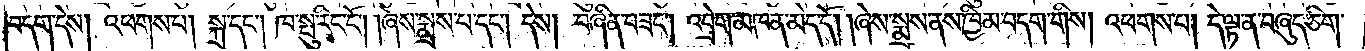བདག་དེས། འཕགས་པ། སྐྲ་དང༌། ཁ་སྤུ་རིང་ངོ༌། །ཞེས་སྨྲས་པ་དང༌། དེས། བཞིན་བཟང༌། འབྲེག་མཁན་མེད་དོ། །ཞེས་སྨྲས་ནས་ཁྱིམ་བདག་གིས། འཕགས་པ། དེ་ལྟ་ན་བཞུད་ཅིག་
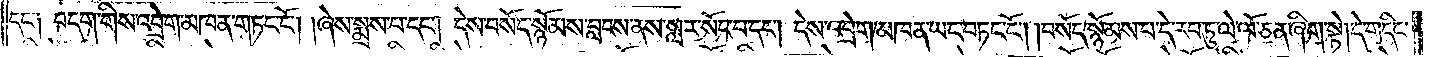དང༌། བདག་གིས་འབྲེག་མཁན་གཏང་ངོ༌། །ཞེས་སྨྲས་པ་དང༌། དེས་བསོད་སྙོམས་བླངས་ནས་སླར་སོང་བ་དང༌། དེས་འབྲེག་མཁན་ཡང་བཏང་ངོ༌། །བསོད་སྙོམས་པ་དེ་རབ་ཏུ་ལེ་ལོ་ཅན་ཞིག་སྟེ། དེ་གདིང་
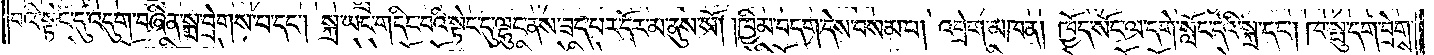བའི་སྟེང་དུ་འདུག་བཞིན་སྐྲ་བྲེགས་པ་དང༌། སྐྲ་ཡང་གདིང་བའི་སྟེང་དུ་ལྷུང་ནས་ཟད་པར་དོར་མ་ནུས་སོ། །ཁྱིམ་བདག་དེས་བསམ་པ། འབྲེག་མཁན། ཁྱོད་སོང་ལ་དགེ་སློང་དེའི་སྐྲ་དང༌། ཁ་སྤུ་དག་བྲེགས་
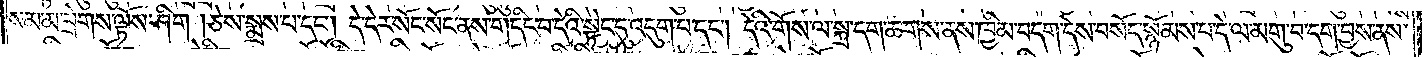སམ་མ་བྲེགས་ལྟོས་ཤིག །ཅེས་སྨྲས་པ་དང༌། དེ་དེར་སོང་སོང་ནས་གདིང་བ་དེའི་སྟེང་དུ་འདུག་པ་དང༌། དེའི་གོས་ལ་སྐྲ་དག་ཆགས་ནས་ཁྱིམ་བདག་དེས་བསོད་སྙོམས་པ་དེ་ལ་མགུ་བ་དག་བྱས་ནས་
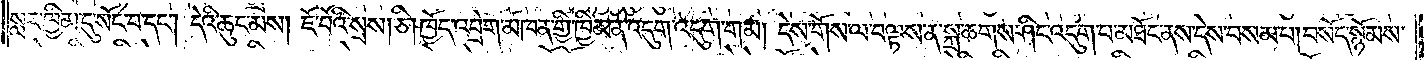སླར་ཁྱིམ་དུ་སོང་བ་དང༌། དེའི་ཆུང་མས། ཇོ་བོའི་སྲས། ཅི། ཁྱོད་འབྲག་མཁན་གྱི་ཁྱིམ་ན་འདུག་འདུག་གམ། དེས་གོས་ལ་བལྟས་ན་སྐྲ་ཆགས་ཤིང་འདུག་པ་མཐོང་ནས་དེས་བསམ་པ། བསོད་སྙོམས་
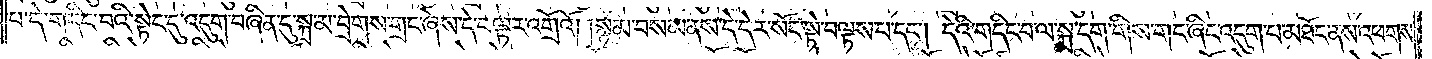པ་དེ་གདིང་བའི་སྟེང་དུ་འདུག་བཞིན་དུ་སྐྲ་མ་བྲེགས་གྲང་ཞེས་དེ་བལྟར་འགྲོའོ། །སྙམ་བསམ་ནས་དེ་དེར་སོང་སྟེ་བལྟས་པ་དང༌། དེའི་གདིང་བ་ལ་སྐྲ་དག་གིས་གང་ཞིང་འདུག་པ་མཐོང་ནས་འཕགས་
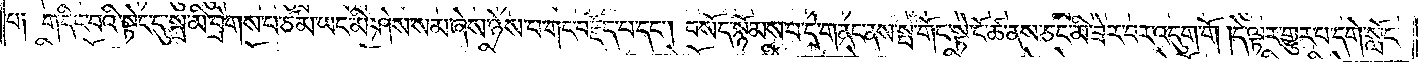པ༑ གདིང་བའི་སྟེང་དུ་སྐྲ་མི་བྲེགས་པ་ཙམ་ཡང་མི་ཤེས་སམ་ཞེས་ཉེས་པ་གང་བརྗོད་པ་དང༌། བསོད་སྙོམས་པ་དེ་གནང་ནས་སྤ་གོང་སྟེ་ངོ་ཚ་ནས་ཅང་མི་ཟེར་བར་འདུག་གོ །དེ་ལྟར་གྱུར་པ་དགེ་སློང་
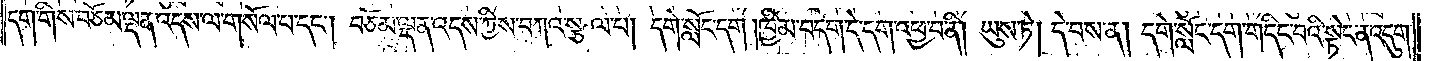དག་གིས་བཅོམ་ལྡན་འདས་ལ་གསོལ་པ་དང༌། བཅོམ་ལྡན་འདས་ཀྱིས་བཀའ་སྩལ་པ། དགེ་སློང་དག །ཁྱིམ་བདག་དེ་དག་འཕྱ་བ་ནི། ཡུས་ཏེ། དེ་བས་ན། དགེ་སློང་དག་གདིང་བའི་སྟེང་ན་འདུག་
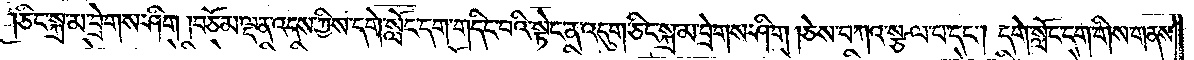ཅིང་སྐྲ་མ་བྲེགས་ཤིག །བཅོམ་ལྡན་འདས་ཀྱིས་དགེ་སློང་དག་གདིང་བའི་སྟེང་ན་འདུག་ཅིང་སྐྲ་མ་བྲེགས་ཤིག །ཅེས་བཀའ་སྩལ་པ་དང༌། དགེ་སློང་དག་གིས་གནས་
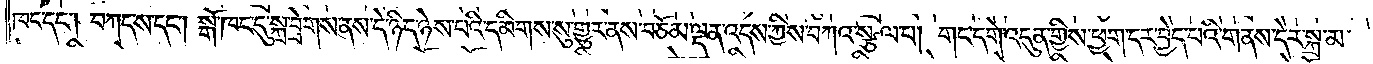ཁང་དང༌། བཀད་ས་དང༌། སྒོ་ཁང་དུ་སྐྲ་བྲེགས་ནས་དེ་ཉིད་ཉེས་པའི་དམིགས་སུ་གྱུར་ནས་བཅོམ་ལྡན་འདས་ཀྱིས་བཀའ་སྩལ་པ། གང་དགེ་འདུན་གྱིས་ཕྱག་དར་བྱེད་པའི་གནས་དེར་སྐྲ་མ་
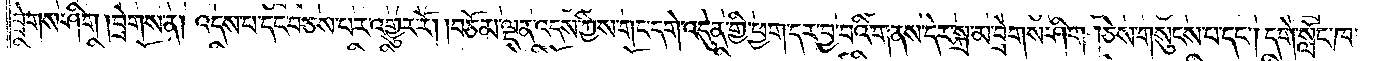བྲེགས་ཤིག །བྲེགས་ན། འདས་པ་དང་བཅས་པར་འགྱུར་རོ། །བཅོམ་ལྡན་འདས་ཀྱིས་གང་དགེ་འདུན་གྱི་ཕྱག་དར་བྱ་བའི་གནས་དེར་སྐྲ་མ་བྲེགས་ཤིག །ཅེས་གསུངས་པ་དང༌། དགེ་སློང་ཁ་
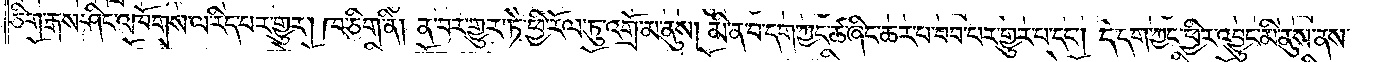ཅིག་རྒས་ཤིང་འཁོགས་ལ་རིད་པར་གྱུར། ཁ་ཅིག་ནི། ན་བར་གྱུར་ཏེ་ཕྱི་རོལ་ཏུ་འགྲོ་མ་ནུས། མི་ན་བ་དག་ཀྱང་ཚ་ཞིང་ཆར་བ་བབ་པར་གྱུར་བ་དང༌། དེ་དག་ཀྱང་ཕྱིར་འབྱུང་མི་ནུས་ནས་
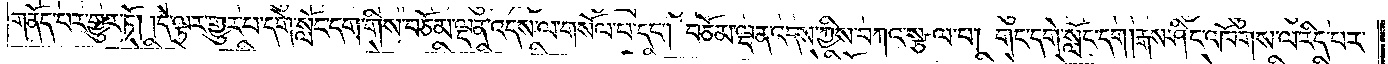གནོད་པར་གྱུར་ཏོ། །དེ་ལྟར་གྱུར་པ་དགེ་སློང་དག་གིས་བཅོམ་ལྡན་འདས་ལ་གསོལ་པ་དང༌། བཅོམ་ལྡན་འདས་ཀྱིས་བཀའ་སྩལ་པ། གང་དགེ་སློང་དག། རྒས་ཤིང་འཁོགས་ལ་རིད་པར་
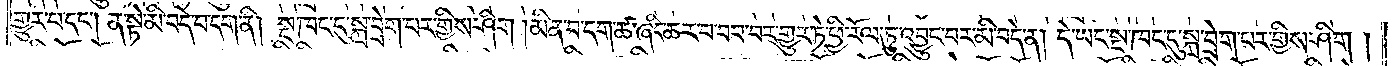གྱུར་པ་དང༌། ན་སྟེ་མི་བདེ་བ་དག་ནི། སྔ་ཁང་དུ་སྐྲ་བྲེག་པར་གྱིས་ཤིག །མིན་བ་དག་ཚ་ཞིང་ཆར་བ་བབ་པར་འགྱུར་ཏེ་ཕྱི་རོལ་ཏུ་འབྱུང་བར་མི་བདེ་ན། དེ་ཡང་སྔ་ཁང་དུ་སྐྲ་བྲེག་པར་གྱིས་ཤིག །
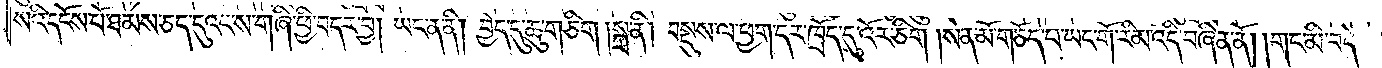སའི་དངོས་པོ་ཐམས་ཅད་དུའང་ས་གཞི་ཕྱི་བདར་བྱ། ཡང་ན་ནི། བྱེད་དུ་ཆུ་གཅིག །སྐྲ་ནི། བསྡུས་ལ་ཕྱག་དར་ཁྲོད་དུ་འོར་ཅིག །སེན་མོ་གཅོད་པ་ཡང་གོ་རིམ་འདི་བཞིན་ནོ། །གང་མི་བདེ་
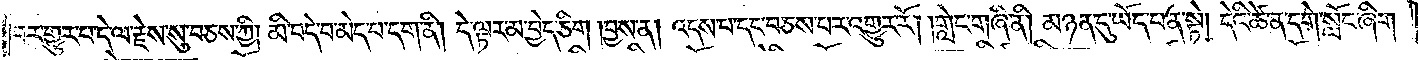བར་གྱུར་པ་དེ་ལ་རྗེས་སུ་བཅས་ཀྱི། མི་བདེ་བ་མེད་པ་དག་ནི། དེ་ལྟར་མ་བྱེད་ཅིག །བྱས་ན། འདས་པ་དང་བཅས་པར་འགྱུར་རོ། །གླེང་གཞི་ནི། མཉན་དུ་ཡོད་པ་ན་སྟེ། དེའི་ཚེ་ན་དགེ་སློང་ཞིག་
